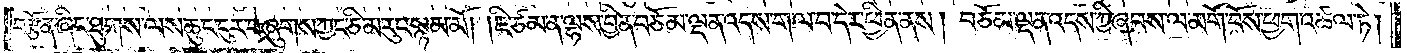བརྩོན་ཞིང་ཐུགས་ལས་ཆུང་ངུར་བཞུགས་ཀྱང་ཅི་མ་རུང་སྙམ་མོ། །ཇི་ཙམ་ན་ལྷས་བྱིན་བཅོམ་ལྡན་འདས་ག་ལ་བ་དེར་ཕྱིན་ནས། བཅོམ་ལྡན་འདས་ཀྱི་ཞབས་ལ་མགོ་བོས་ཕྱག་འཚལ་ཏེ།
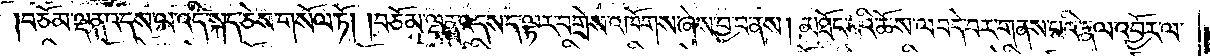བཅོམ་ལྡན་འདས་ལ་འདི་སྐད་ཅེས་གསོལ་ཏོ། བཅོམ་ལྡན་འདས་ད་ལྟར་བགྲེས་འཁོགས་ཞེས་བྱ་བ་ནས། མཐོང་བའི་ཆོས་ལ་བདེ་བར་གནས་པའི་རྣལ་འབྱོར་ལ་
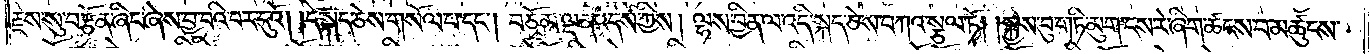རྗེས་སུ་བརྩོན་ཞིང་ཞེས་བྱ་བའི་བར་དུའོ། །དེ་སྐད་ཅེས་གསོལ་བ་དང༌། བཅོམ་ལྡན་འདས་ཀྱིས། ལྷས་བྱིན་ལ་འདི་སྐད་ཅེས་བཀའ་སྩལ་ཏོ། །སྐྱེས་བུ་གཏི་མུག་ངས་རེ་ཞིག་ཚངས་པ་མཚུངས་
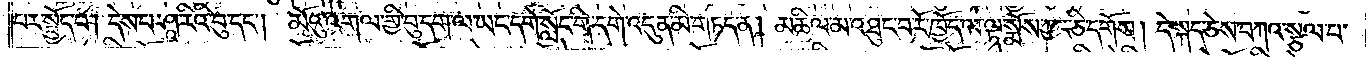པར་སྤྱོད་པ། དེས་པ་ཤཱ་རིའི་བུ་དང༌། མོའུ་འགལ་གྱི་བུ་དག་ལ་ཡང་དགེ་སློང་གི་དགེ་འདུན་མི་གཏད་ན། མཆིལ་མ་འཐུང་བ་རོ་ཁྱོད་ལ་ལྟ་སྨོས་ཀྱང་ཅི་དགོས། དེ་སྐད་ཅེས་བཀའ་སྩལ་པ་
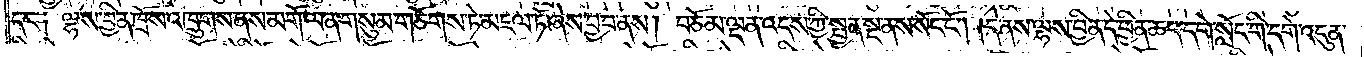དང་༑ ལྷས་སྦྱིན་ཁྲོས་འཁྲུགས་ནས་མགོ་ལན་གསུམ་གཅོགས་ཏེ་མཇལ་ཏོ་ཞེས་བྱ་བ་ནས། བཅོམ་ལྡན་འདས་ཀྱི་སྤྱན་སྔ་ནས་སོང་ངོ༌། དེ་ནས་ལྷས་བྱིན་དེ་ཕྱིན་ཆད་དགེ་སློང་གི་དགེ་འདུན་
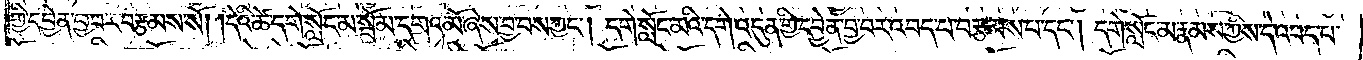གྱི་དབྱེན་བྱ་བར་བརྩམས་སོ། །དེའི་ཚེ་དགེ་སློང་མ་སྦོམ་དགའ་མོ་ཞེས་བྱ་བས་ཀྱང༌། དགེ་སློང་མའི་དགེ་འདུན་གྱི་དབྱེན་བྱ་བར་འབད་པ་བརྩམས་པ་དང༌། དགེ་སློང་མ་རྣམས་ཀྱིས་དེ་འབད་པ་
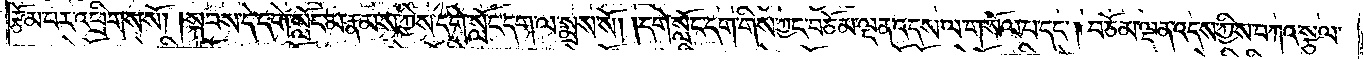རྩོམ་པར་འཕྲིགས་སོ། །སྐབས་དེ་དགེ་སློང་མ་རྣམས་ཀྱིས་དགེ་སློང་དག་ལ་སྨྲས་སོ། །དགེ་སློང་དག་གིས་ཀྱང་བཅོམ་ལྡན་འདས་ལ་གསོལ་བ་དང༌། བཅོམ་ལྡན་འདས་ཀྱིས་བཀའ་སྩལ་
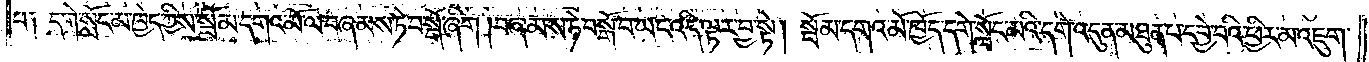པ༑ དགེ་སློང་མ་ཁྱེད་ཀྱིས་སྦོམ་དགའ་མོ་ལ་བཞམས་ཏེ་བསྒོ་ཞིག །བཞམས་ཏེ་བསྒོ་བ་ཡང་འདི་ལྟར་བྱ་སྟེ། སྦོམ་དགའ་མོ་ཁྱོད་དགེ་སློང་མའི་དགེ་འདུན་མཐུན་པ་དབྱེ་བའི་ཕྱིར་མ་འཇུག་
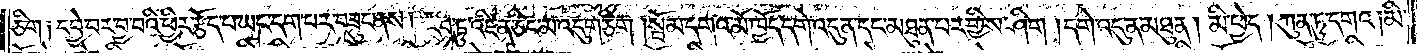ཅིག །དབྱེ་བར་བྱ་བའི་ཕྱིར་རྩོད་པ་ཡང་དག་པར་བཟུང་ནས། རབ་ཏུ་འཛིན་ཅིང་མ་འདུག་ཅིག །སྦོམ་དགའ་མོ་ཁྱོད་དགེ་འདུན་དང་མཐུན་པར་གྱིས་ཤིག །དགེ་འདུན་མཐུན། མི་ཕྱེད། ཀུན་ཏུ་དགའ་མི་
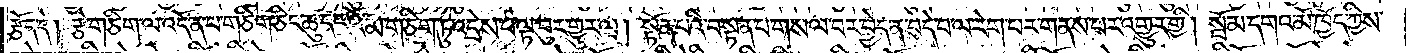རྩོད་དེ། རྩེ་གཅིག་ལ་འདོན་པ་གཅིག་ཅིང་ཆུ་དང་འོ་མ་གཅིག་ཏུ་འདྲེས་པ་ལྟ་བུར་གྱུར་ལ། སྟོན་པའི་བསྟན་པ་གསལ་བར་བྱེད་ན་བདེ་བ་ལ་རེག་པར་གནས་པར་འགྱུར་གྱི། སྦོམ་དགའ་མོ་ཁྱོད་ཀྱིས་
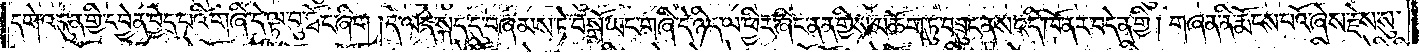དགེ་འདུན་གྱི་དབྱེན་བྱེད་པའི་གཞི་དེ་ལྟ་བུ་ཐོང་ཞིག །དེ་ལ་དེ་སྐད་དུ་བཞམས་ཏེ་བསྒོ་ཡང་གཞི་དེ་ཉིད་ལ་ཕྱིར་ཞིང་ནན་གྱིས་མཆོག་ཏུ་བཟུང་ནས་འདི་ཁོ་ནར་བདེན་གྱི། གཞན་ནི་རྨོངས་པའོ་ཞེས་རྗེས་སུ་
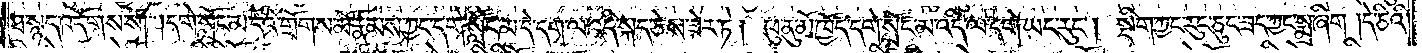ཐ་སྙད་འདོགས་སོ། །དགེ་སློང་མ་དེའི་གྲོགས་མོ་རྣམས་ཀྱང་དགེ་སློང་མ་དེ་དག་ལ་འདི་སྐད་ཅེས་ཟེར་ཏེ། ཕུ་ནུ་མོ་ཁྱོད་དགེ་སློང་མ་འདི་ལ་དགེ་ཡང་རུང༌། སྡིག་ཀྱང་རུང་ཅུང་ཟད་ཀྱང་སྨྲ་ཞིག །དེ་ཅིའི་
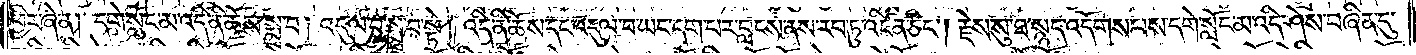ཕྱིར་ཞེ་ན། དགེ་སློང་མ་འདི་ནི་ཆོས་སྨྲ་བ། འདུལ་བ་སྨྲ་བ་སྟེ། འདི་ནི་ཆོས་དང་འདུལ་བ་ཡང་དག་པར་བླངས་ནས་རབ་ཏུ་འཛིན་ཅིང༌། རྗེས་སུ་ཐ་སྙད་འདོགས་པས་དགེ་སློང་མ་འདི་ཤེས་བཞིན་དུ་
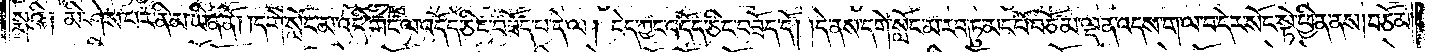སྨྲའི༑ མི་ཤེས་པར་ནི་མ་ཡིན་ནོ། །དགེ་སློང་མ་འདི་གང་ལ་འདོད་ཅིང་བཟོད་པ་དེ་ལ། ངེད་ཀྱང་འདོད་ཅིང་བཟོད་དོ། །དེ་ནས་དགེ་སློང་མ་རབ་ཏུ་མང་པོ་བཅོམ་ལྡན་འདས་ག་ལ་བ་དེར་སོང་སྟེ་ཕྱིན་ནས། བཅོམ་
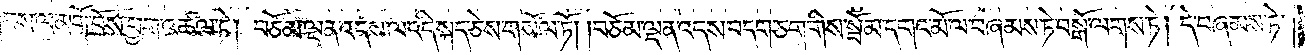ཞབས་ལ་མགོ་བོས་ཕྱག་འཚལ་ཏེ། བཅོམ་ལྡན་འདས་ལ་འདི་སྐད་ཅེས་གསོལ་ཏོ། །བཅོམ་ལྡན་འདས་བདག་ཅག་གིས་སྦོམ་དགའ་མོ་ལ་བཞམས་ཏེ་བསྒོ་ལགས་ཏེ། དེ་བཞམས་ཏེ་
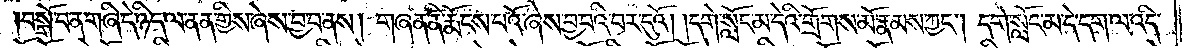བསྒོ་བ་ན་གཞི་དེ་ཉིད་ལ་ནན་གྱིས་ཞེས་བྱ་བ་ནས། གཞན་ནི་རྨོངས་པའོ་ཞེས་བྱ་བའི་བར་དུའོ། །དགེ་སློང་མ་དེའི་གྲོགས་མོ་རྣམས་ཀྱང༌། དགེ་སློང་མ་དེ་དག་ལ་འདི་
